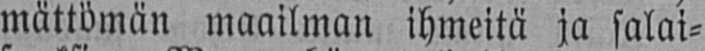mättömän maailman ihmeitä ja salai-
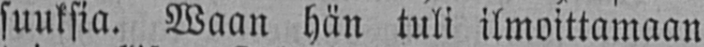suuksia. Waan hän tuli ilmoittamaan
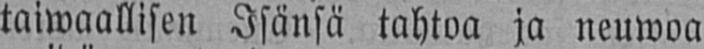taiwaallisen Isänsä tahtoa ja neuwoa
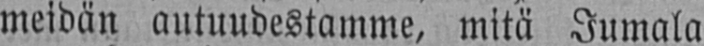meidän autuudestamme, mitä Jumala
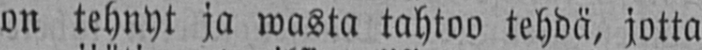on tehnyt ja wasta tahtoo tehdä, jotta
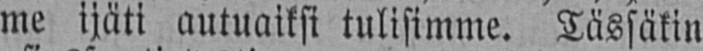me ijäti autuaiksi tulisimme. Tässäkin
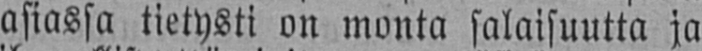asiassa tietysti on monta salaisuutta ja
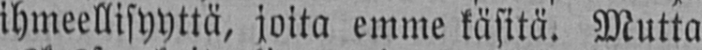ihmeellisyyttä, joita emme käsitä. Mutta
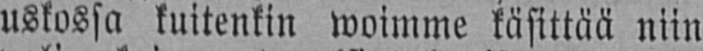uskossa kuitenkin woimme käsittää niin
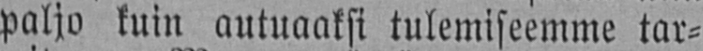paljo kuin autuaaksi tulemiseemme tar-
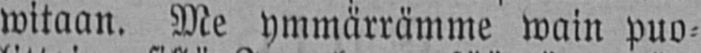witaan. Me ymmärrämme wain puo-
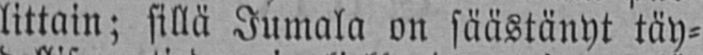littain; sillä Jumala on säästänyt täy-
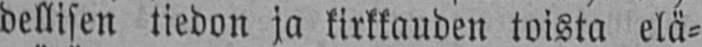dellisen tiedon ja kirkkauden toista elä-
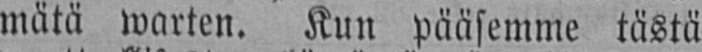mätä warten. Kun pääsemme tästä
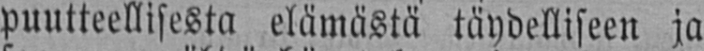puutteellisesta elämästä täydelliseen ja
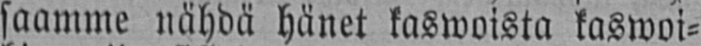saamme nähdä hänet kaswoista kaswoi-
